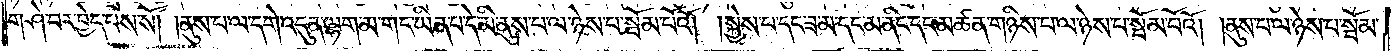གཤེ་བར་བྱེད་པས་སོ། །ནུས་པ་ལ་དགེ་འདུན་ལྷག་མ་གང་ཡིན་པ་དེ་མི་ནུས་པ་ལ་ཉེས་པ་སྦོམ་པོའོ། །སྐྱེས་པ་དང་ཟ་མ་དང་མ་ནིང་དང་མཚན་གཉིས་པ་ལ་ཉེས་པ་སྦོམ་པོའོ། །ནུས་པ་ལ་ཉེས་པ་སྦོམ་
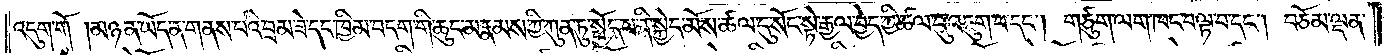འདུག་གོ །མཉན་ཡོད་ན་གནས་པའི་བྲམ་ཟེ་དང་ཁྱིམ་བདག་གི་ཆུང་མ་རྣམས་ཀྱི་ཀུན་ཏུ་སྤྱོད་པ་ནི་སྐྱེད་མོས་ཚལ་དུ་སོང་སྟེ་རྒྱལ་བྱེད་ཀྱི་ཚལ་དུ་འཇུག་པ་དང༌། གཙུག་ལག་ཁང་བལྟ་བ་དང༌། བཅོམ་ལྡན་
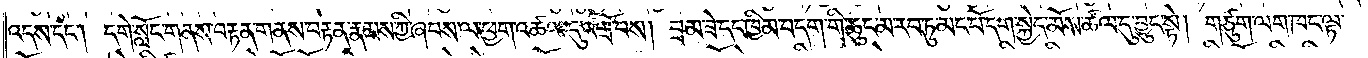འདས་དང༌། དགེ་སློང་གནས་བརྟན་གནས་བརྟན་རྣམས་ཀྱི་ཞབས་ལ་ཕྱག་འཚལ་དུ་འགྲོ་བས། བྲམ་ཟེ་དང་ཁྱིམ་བདག་གི་ཆུང་མར་རབ་ཏུ་མང་པོ་དག་སྐྱེད་མོས་ཚལ་དུ་བྱུང་སྟེ། གཙུག་ལག་ཁང་ལྟ་
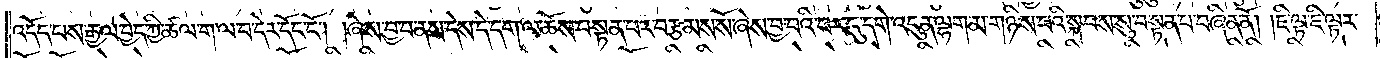འདོད་པས་རྒྱལ་བྱེད་ཀྱི་ཚལ་ག་ལ་བ་དེར་དོང་ངོ༌། །ཞེས་བྱ་བ་ནས་དེས་དེ་དག་ལ་ཆོས་བསྟན་པར་བརྩམས་སོ་ཞེས་བྱ་བའི་བར་དུ་དགེ་འདུན་ལྷག་མ་གཉིས་པའི་སྐབས་སུ་བསྟན་པ་བཞིན་ནོ། །ཇི་ལྟ་ཇི་ལྟར་
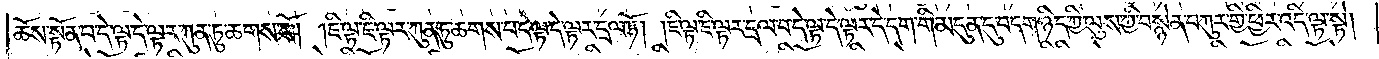ཆོས་སྟོན་པ་དེ་ལྟ་དེ་ལྟར་ཀུན་ཏུ་ཆགས་སོ། །ཇི་ལྟ་ཇི་ལྟར་ཀུན་ཏུ་ཆགས་པ་དེ་ལྟ་དེ་ལྟར་དྲལ་ཏོ། །ཇི་ལྟ་ཇི་ལྟར་དྲལ་བ་དེ་ལྟ་དེ་ལྟར་དེ་དག་གི་མདུན་དུ་བདག་ཉིད་ཀྱི་ལུས་ཀྱི་བསྙེན་བཀུར་གྱི་ཕྱིར་འདི་ལྟ་སྟེ།
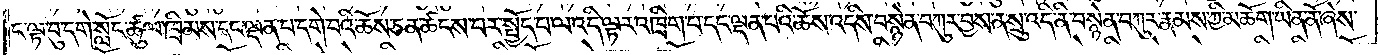ང་ལྟ་བུ་དགེ་སློང་ཚུལ་ཁྲིམས་དང་ལྡན་པ་དགེ་བའི་ཆོས་ཅན་ཚངས་པར་སྤྱོད་པ་ལ་འདི་ལྟར་འཁྲིག་པ་དང་ལྡན་པའི་ཆོས་འདིས་བསྙེན་བཀུར་བྱས་ན་སྲུ་འདི་ནི་བསྙེན་བཀུར་རྣམས་ཀྱི་མཆོག་ཡིན་ནོ་ཞེས་
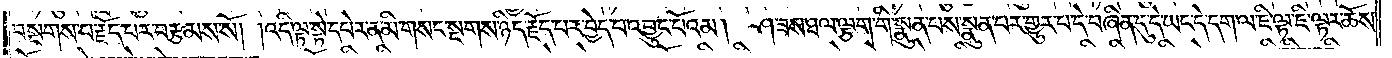བསྔགས་པ་རྗོད་པར་བརྩམས་སོ། །འདི་ལྟ་སྟེ་དཔེར་ན་མི་གསང་སྔགས་ཉིད་རྗོད་པར་བྱེད་པ་འབྱུང་པོའམ། ཤ་ཟས་ཐལ་ལྕག་གི་སྣུན་པས་སྣུན་པར་གྱུར་པ་དེ་བཞིན་དུ་དེ་ཡང་དེ་དག་ལ་ཇི་ལྟ་ཇི་ལྟར་ཆོས་
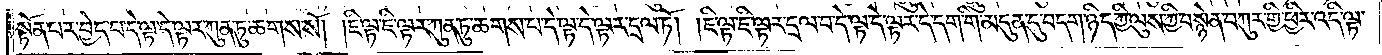སྟོན་པར་བྱེད་པ་དེ་ལྟ་དེ་ལྟར་ཀུན་ཏུ་ཆགས་སོ། །ཇི་ལྟ་ཇི་ལྟར་ཀུན་ཏུ་ཆགས་པ་དེ་ལྟ་དེ་ལྟར་དྲལ་ཏོ། །ཇི་ལྟ་ཇི་ལྟར་དྲལ་བ་དེ་ལྟ་དེ་ལྟར་དེ་དག་གི་མདུན་དུ་བདག་ཉིད་ཀྱི་ལུས་ཀྱི་བསྙེན་བཀུར་གྱི་ཕྱིར་འདི་ལྟ་
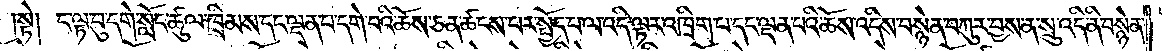།སྟེ། ང་ལྟ་བུ་དགེ་སློང་ཚུལ་ཁྲིམས་དང་ལྡན་པ་དགེ་བའི་ཆོས་ཅན་ཚངས་པར་སྤྱོད་པ་ལ་འདི་ལྟར་འཁྲིག་པ་དང་ལྡན་པའི་ཆོས་འདིས་བསྙེན་བཀུར་བྱས་ན་སྲུ་འདི་ནི་བསྙེན་
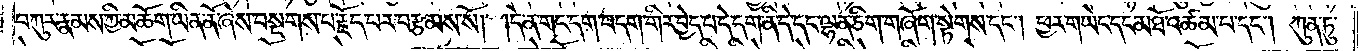བཀུར་རྣམས་ཀྱི་མཆོག་ཡིན་ནོ་ཞེས་བསྔགས་པ་རྗོད་པར་བརྩམས་སོ། །དེ་ན་གང་དག་བདག་གིར་བྱེད་པ་དེ་དག་ནི་དེ་དང་ལྷན་ཅིག་གཞོག་སྟེགས་དང༌། ཕྱར་གཡེང་དང་མཐོ་འཚམ་པ་དང༌། ཀུན་ཏུ་
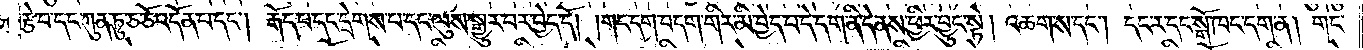རྩེ་བ་དང་ཀུན་ཏུ་ཅ་ཅོ་འདོན་པ་དང༌། རྒོད་པ་དང་དྲེགས་པ་དང་ལུས་སྒྱུར་བར་བྱེད་དོ། །གང་དག་བདག་གིར་མི་བྱེད་པ་དེ་དག་ནི་དེ་ནས་ཕྱིར་བྱུང་སྟེ། འཆག་ས་དང༌། དང་ར་དང་སྒོ་ཁང་དག་ན། གང་
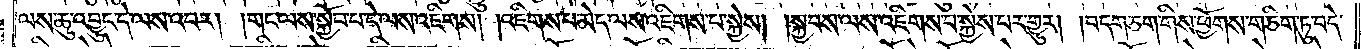ལས་ཆུ་འབྱུང་དེ་ལས་འབར། །གང་ལས་སྐྱོབ་པ་དེ་ལས་འཇིགས། །འཇིགས་པ་མེད་ལས་འཇིགས་པ་སྐྱེས། །སྐྱབས་ལས་འཇིགས་པ་སྐྱེས་པར་གྱུར། །བདག་ཅག་གིས་ཕྱོགས་གཅིག་ཏུ་བདེ་
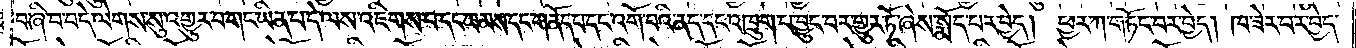བཞི་བ་དེ་ལེགས་སུ་འགྱུར་བ་གང་ཡིན་པ་དེ་ལས་འཇིགས་པ་དང་ཡམས་དང་གནོད་པ་དང་འགོ་བའི་ནད་དང་འཁྲུག་པ་བྱུང་བར་གྱུར་ཏོ་ཞེས་སྨོད་པར་བྱེད། ཕྱར་ཀ་གཏོང་བར་བྱེད། ཁ་ཟེར་བར་བྱེད་
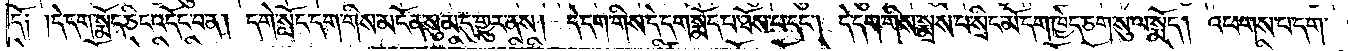དོ༑ །དེ་དག་སྨོད་ཅིང་འདོང་བ་ན། དགེ་སློང་དག་གིས་མངོན་སུམ་དུ་གྱུར་ནས། དེ་དག་གིས་དེ་དག་སྨོད་པ་ཐོས་པ་དང༌། དེ་དག་གིས་སྨྲས་པ་སྲིང་མོ་དག་ཁྱེད་ཅག་སུ་ལ་སྨོད། འཕགས་པ་དག་
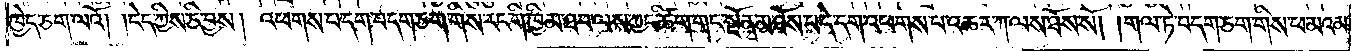ཁྱེད་ཅག་ལའོ། །ངེད་ཀྱིས་ཅི་བྱས། འཕགས་པ་དག་བདག་ཅག་གིས་རང་གི་ཁྱིམ་ཐབ་ལས་ཀྱང་ཚིག་གང་སྔོན་མ་ཐོས་པ་དེ་དག་འཕགས་པ་འཆར་ཀ་ལས་ཐོས་སོ། །གལ་ཏེ་བདག་ཅག་གིས་ཕ་མའམ་
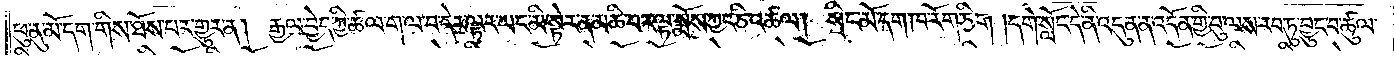ཕུ་ནུ་མོ་དག་གིས་ཐོས་པར་གྱུར་ན། རྒྱལ་བྱེད་ཀྱི་ཚལ་ག་ལ་བ་དེར་ལྟར་ཡང་མི་སྟེར་ན་མཆི་བར་ལྟ་སྨོས་ཀྱང་ཅི་འཚལ། སྲིང་མོ་དག་ཁ་རོག་ཅིག །དགེ་སློང་དེ་ནི་འདུན་ན་འདོན་གྱི་བུ་ལས་རབ་ཏུ་བྱུང་བ་ཚུལ་
